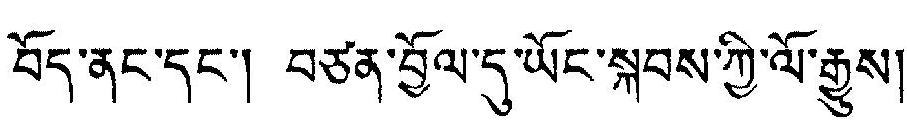བོད་ནང་དང་། བཙན་བྱོལ་དུ་ཡོང་སྐབས་ཀྱི་ལོ་རྒྱུས།
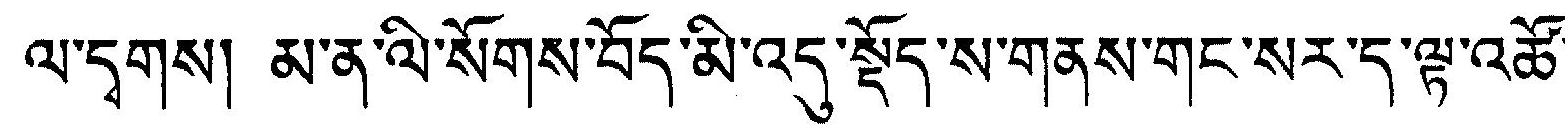ལ་དྭགས། མ་ན་ལི་སོགས་བོད་མི་འདུ་སྡོད་ས་གནས་གང་སར་ད་ལྟ་འཚོ་
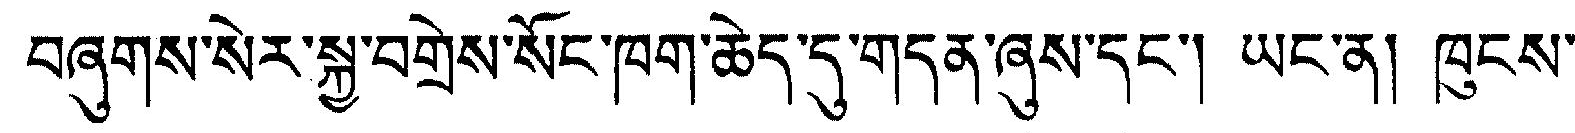བཞུགས་སེར་སྐྱ་བགྲེས་སོང་ཁག་ཆེད་དུ་གདན་ཞུས་དང་། ཡང་ན། ཁུངས་
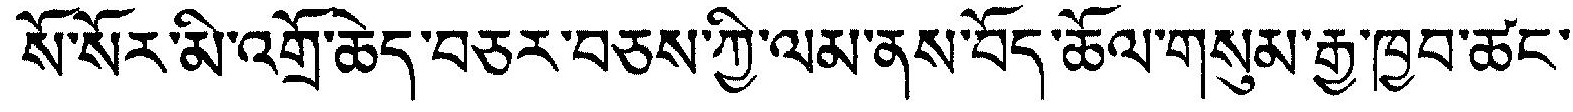སོ་སོར་མི་འགྲོ་ཆེད་བཅར་བཅས་ཀྱི་ལམ་ནས་བོད་ཆོལ་གསུམ་རྒྱ་ཁྱབ་ཚང་
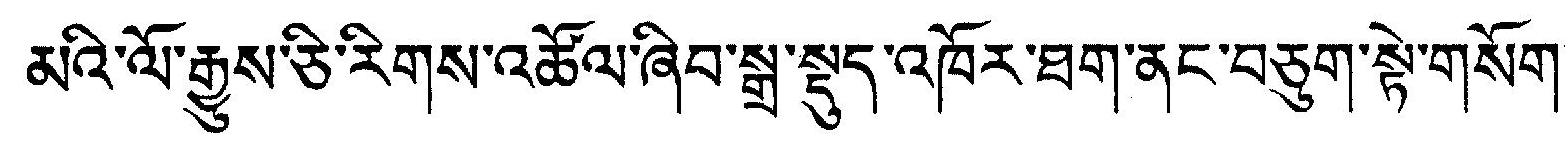མའི་ལོ་རྒྱུས་ཅི་རིགས་འཚོལ་ཞིབ་སྒྲ་སྡུད་འཁོར་ཐག་ནང་བཅུག་སྟེ་གསོག་
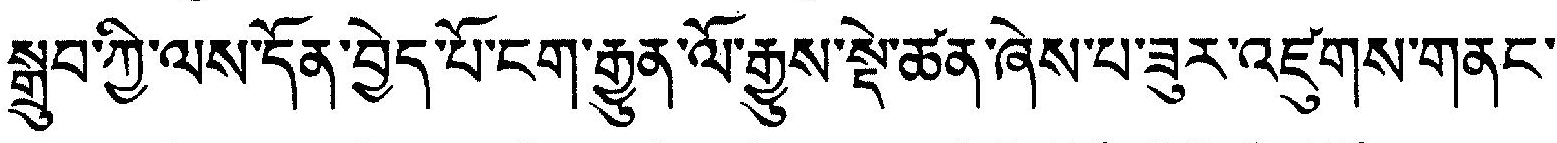སྒྲུབ་ཀྱི་ལས་དོན་བྱེད་པོ་ངག་རྒྱུན་ལོ་རྒྱུས་སྡེ་ཚན་ཞེས་པ་ཟུར་འཛུགས་གནང་
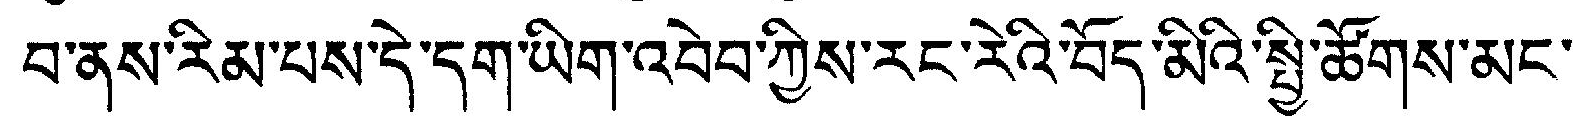བ་ནས་རིམ་པས་དེ་དག་ཡིག་འབེབ་ཀྱིས་རང་རེའི་བོད་མིའི་སྤྱི་ཚོགས་མང་
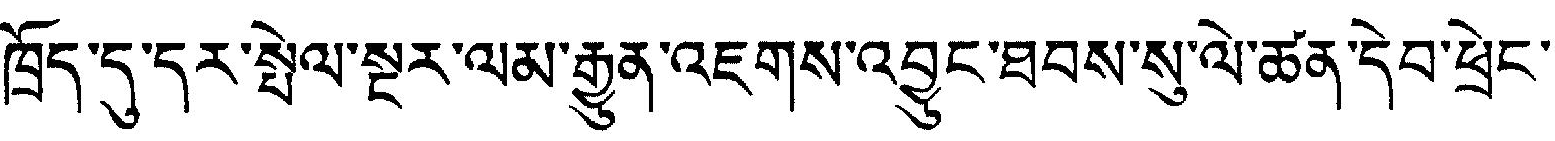ཁྲོད་དུ་དར་སྤེལ་སྔར་ལམ་རྒྱུན་འཇགས་འབྱུང་ཐབས་སུ་ལེ་ཚན་དེབ་ཕྲེང་
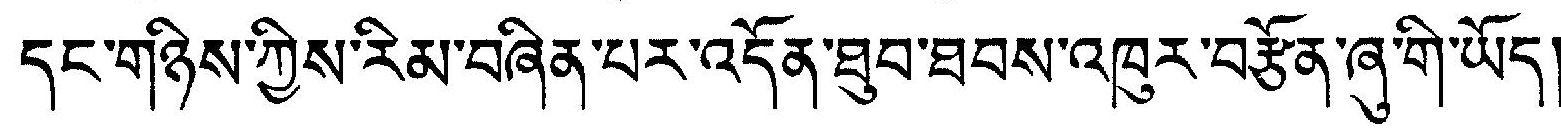དང་གཉིས་ཀྱིས་རིམ་བཞིན་པར་འདོན་ཐུབ་ཐབས་འཁུར་བརྩོན་ཞུ་གི་ཡོད།
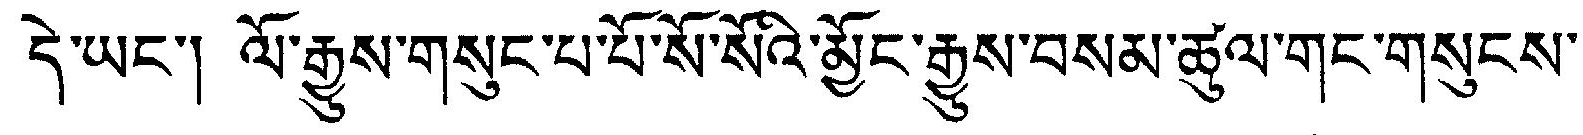དེ་ཡང་། ལོ་རྒྱུས་གསུང་པ་པོ་སོ་སོའི་མྱོང་རྒྱུས་བསམ་ཚུལ་གང་གསུངས་
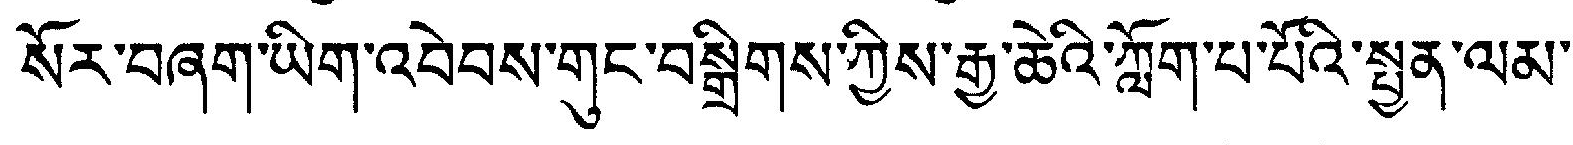སོར་བཞག་ཡིག་འབེབས་གུང་བསྒྲིགས་ཀྱིས་རྒྱ་ཆེའི་ཀློག་པ་པོའི་སྤྱན་ལམ་
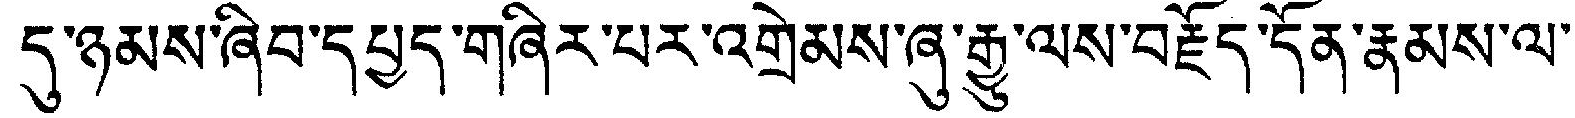དུ་ཞམས་ཞིབ་དཔྱད་གཞིར་པར་འགྲེམས་ཞུ་རྒྱུ་ལས་བརྗོད་དོན་རྣམས་ལ་
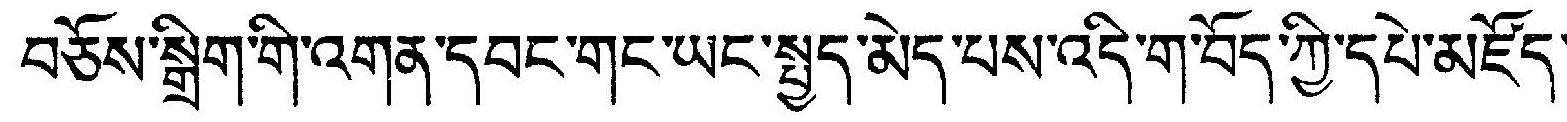བཅོས་སྒྲིག་གི་འགན་དབང་གང་ཡང་སྤྱད་མེད་པས་འདི་གབོད་ཀྱི་དཔེ་མཛོད།
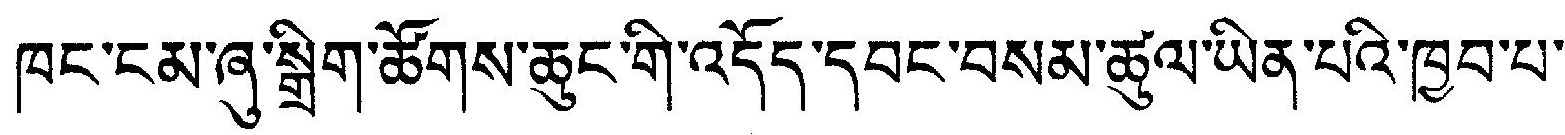ཁང་ངམ་ཞུ་སྒྲིག་ཚོགས་ཆུང་གི་འདོད་དབང་བསམ་ཚུལ་ཡིན་པའི་ཁྱབ་པ་་
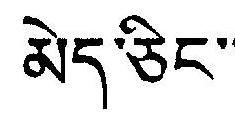མེད་ཅིང་།
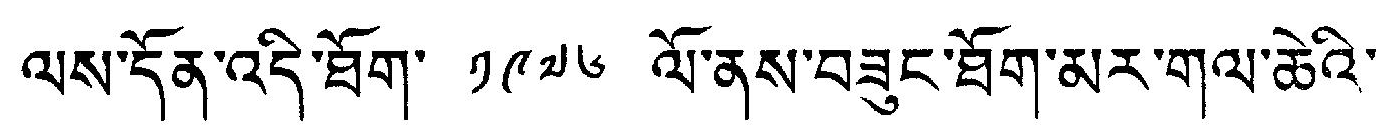ལས་དོན་འདི་ཐོག་ ༡༩༧༦ ལོ་ནས་བཟུང་ཐོག་མར་གལ་ཆེའི་
